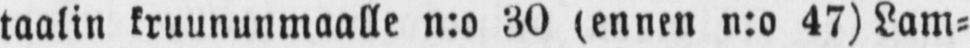taalin kruununmaalle n:o 30 (ennen n:o 47)Lam-
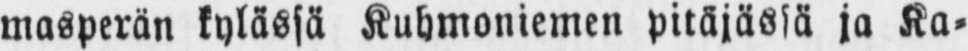masperän kylässä Kuhmoniemen pitäjässä ja Ka-
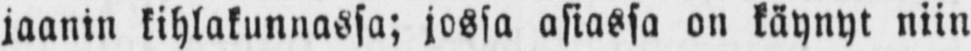jaanin kihlakunnassa; jossa asiassa on käynyt niin
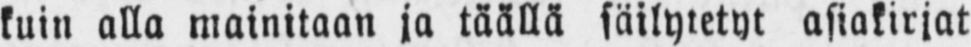kuin alla mainitaan ja täällä säilytetyt asiakirjat
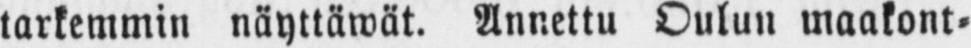tarkemmin näyttäwät. Annettu Oulun maakont-
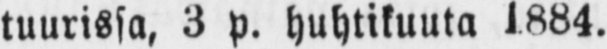tuurissa, 3 p. huhtikuuta 1884.
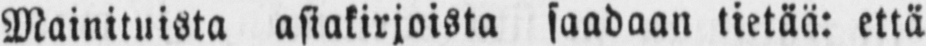Mainituista asiakirjoista saadaan tietää: että
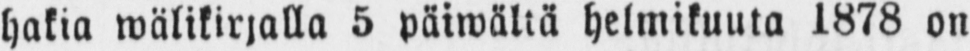hakia wälikirjalla 5 päiwältä helmikuuta 1878 on
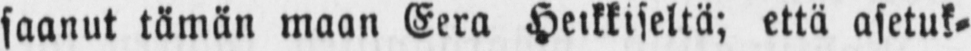saanut tämän maan Eera Heikkiseltä; että asetuk-
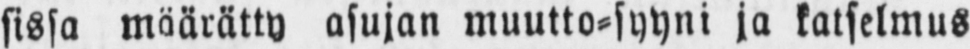sissa määrätty asujan muutto-syyni ja katselmus
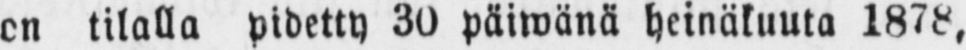on tilalla pidetty 30 päiwänä heinäkuuta 1878,
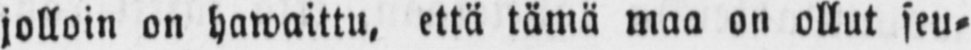jolloin on hawaittu, että tämä maa on ollut seu-
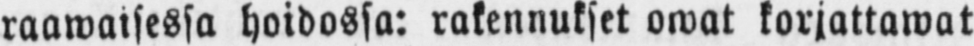raawaisessa hoidossa: rakennukset owat korjattawat
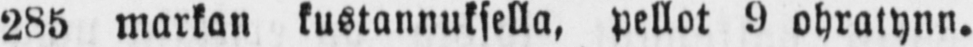285 markan kustannuksella, pellot 9 ohratynn.
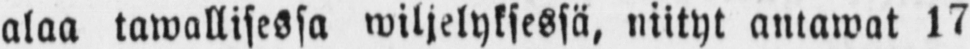alaa tawallisessa wiljelyksessä, niityt antawat 17
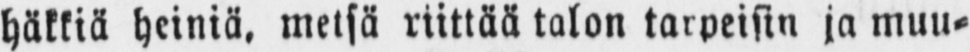häkkiä heiniä, metsä riittää talon tarpeista ja muu-
